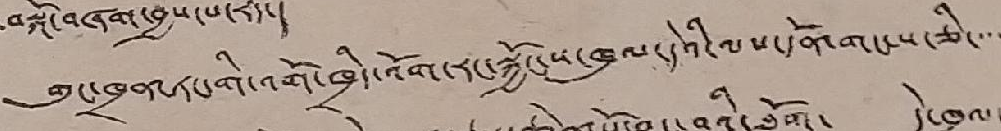གུང་ཁྲན་ཏང་གི་འགོ་ཁྲིད་འོག་རང་སྐྱོང་ས་ཁུལ་དེའི་ལས་དོན་གང་ས་ཅི་་་་
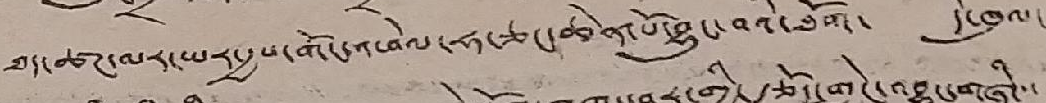ཐད་ཚཊ་པར་མར་ཡར་རྒྱས་གོང་འཕེལ་ཧ་ཅང་ཆེན་པོ་བྱུང་བའི་ཐོག་ དེ་ཁུལ་
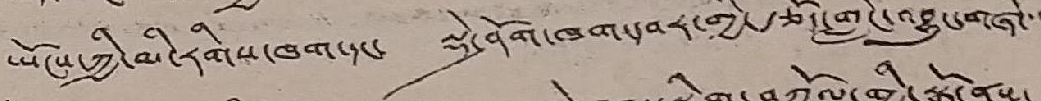ཡོངས་ཀྱི་མི་རིགས་ཁག་དང་ ལྡེ་ཤོག་ཁག་དབར་གྱི་རྩོད་གླེང་འབྱུང་གཞི་་་
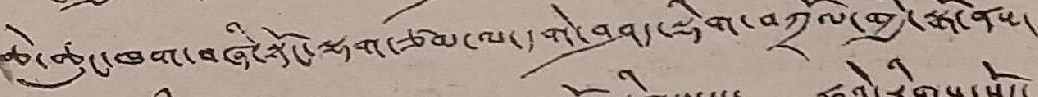ཆེ་ཆུང་ཁག་བཞི་སྟོང་ལྷག་ཙམ་ལ་དགེ་བཤད་ལྡིག་བཀྲོལ་གྱི་སྒོ་ནས་
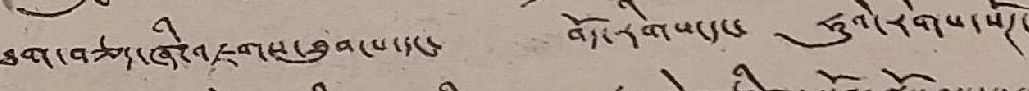ཐག་བཅད་ཞི་འཇགས་ཐུབ་པ་དང་ བོད་རིགས་དང་ ཧུའེ་རིགས་སོཊ་
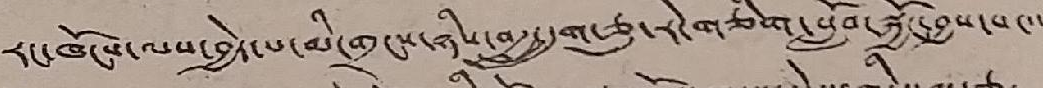རང་ཁོངས་ལས་བྱེད་པ་མི་གྲངས་ཉིས་བརྒྱ་དྲུག་ཅུ་རེ་གཅིག་སློབ་སྐྱོང་བྱས་པ་་་
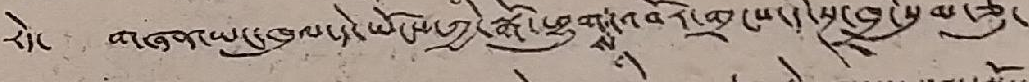རེད་ གཞན་ཡང་ཁུལ་དེ་ཡོངས་ཀྱི་སྒོ་ཕྱུགས་འབོར་གྲངས་དེ་སྔ་ཁྲི་སུམ་ཅུ་
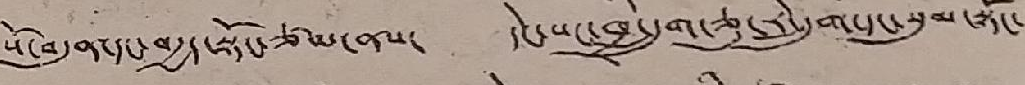སོ་བདུན་དང་བརྒྱད་སྟོང་ཙམ་ནས་ དེང་སང་ཁྲི་དྲུག་ཅུ་རེ་དྲུག་དང་སུམ་སྟོང་
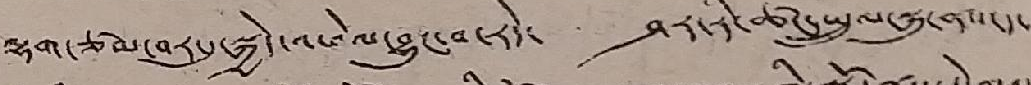ལྷག་ཙམ་བར་དུ་སྐྱེ་འཕེལ་བྱུང་བ་རེད་ ཤར་རི་ཚང་སྤྲུལ་སྐུ་ནས་དང་
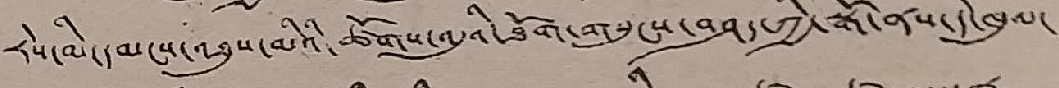རེས་མི་དམངས་འཐུས་མིའི་ཚོགས་འདུའི་ཐོག་གསུངས་བཤད་ཀྱི་སྒོ་ནས་དེ་ཁུལ་
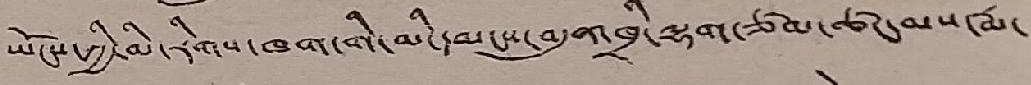ཡོངས་ཀྱི་མི་རིགས་ཁག་གི་མི་དམངས་བདུན་ཁྲི་ལྷག་ཙམ་ཚང་མས་རྨ་
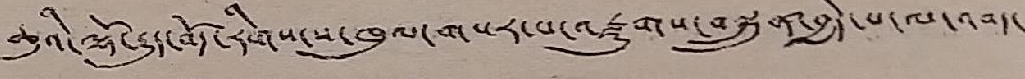ཆུའི་ལྷོ་རྒྱུད་བོད་རིགས་ས་ཁུལ་གསར་པ་འཛུགས་བསྐྲུན་བྱེད་པ་ལ་འབད་
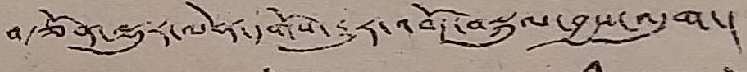བརྩོན་ལྡུར་ལེན་དགོས་རྒྱུར་འབོད་བསྐུལ་བྱས་འདུག་
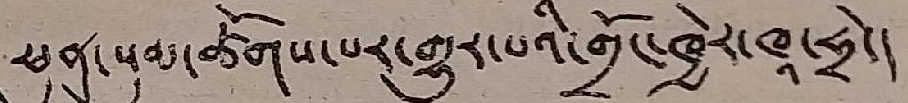ཕུན་སུམ་ཚོགས་པར་གྱུར་བའི་གྲོང་ཁྱེར་ཁཱ་ཧྲེ་།
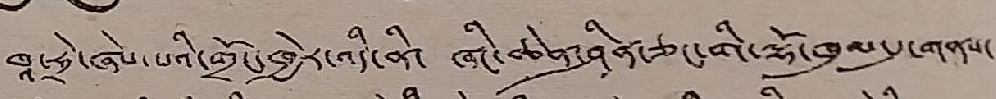ཁཱ་ཧྲེ་ཞེས་པའི་གྲོང་ཁྱེར་འདི་ནི་ ཞིང་ཆེན་ཤིན་ཅང་གི་ལྷོ་ཁུལ་དུ་གནས་
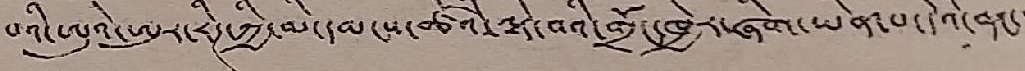པའི་ཨུའེ་ཨུར་རིཊ་ཀྱི་མི་དམངས་ཚོའི་ལྟེ་བའི་གྲོང་ཁྱེར་ཞིག་ཡིན་པ་དེའི་ནང་་་
